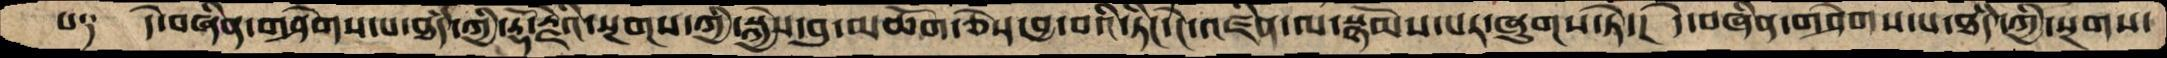པ༑  དེ་བཞིན་གཤེགས་པ་ཐཾད་ཀྱི་རྡོ་རྗེའི་སྔགས་ཀྱི་སྐྱེས་བུ་མཆོག་ཅེས་བྱ་བའི་ཏིང་ངེ་འཛིན་ལ་སྙོམས་པར་ཞུགས་ཏེ་།  དེ་བཞིན་གཤེགས་པ་ཐཾད་ཀྱི་སྔགས་
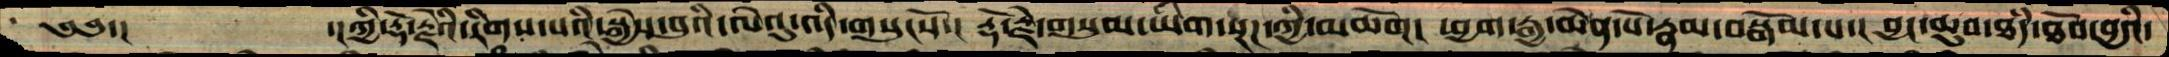༄༅་།          ་།ཀྱི་རྡོ་རྗེའི་རིགས་པའི་སྐྱེས་བུའི་ལེའུ་འདི་གསུངསོ་། རྡོ་རྗེ་གསུམ་ཡིག་སྔཌ་ཀྱི་མཆོག། ཕྱག་རྒྱ་ཆེན་པོ་རྣམ་བསྒོམ་པ་། བྱང་ཆུབ་ཐཾད་ཐོབ་བྱའི་
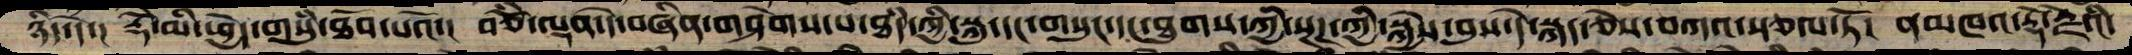ཉིད་དོ་།།  རྡོེ་མི་ཕྱེད་གསུཾ་ཐོབ་པའོ་།  བཅོཾ་ལྡན་དེ་བཞིན་གཤེགས་པ་ཐཾད་ཀྱི་སྐུ་དང་གསུང་དང་ཐུགས་ཀྱི་སྔཌ་ཀྱི་སྐྱེས་བུས་དེ་སྐད་ཅེས་བཀའ་སྩལ་ཏོ།  ནམཁའ་རྡོ་རྗེའི་
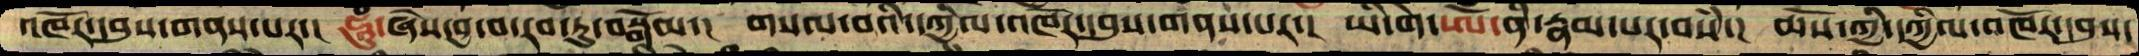འཁོར་དབུས་གནས་པར་།  ཧཱུཾ་ཞེས་བྱ་བ་རབ་ཏུ་བསྒོམ་།  གསལ་བའི་དཀྱིལ་འཁོར་དབུས་གནས་པར་།  ཡི་གེ་ཨོཾ་ནི་རྣམ་པར་བསཾ་།  ཆོས་ཀྱི་དཀྱིལ་འཁོར་དབུས་
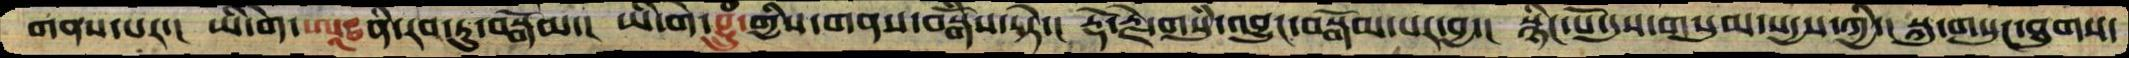གནས་པར་།  ཡི་གེ་ཨཱཿནི་རབ་ཏུ་བསྒོམ་།  ཡི་གེ་བྷྲུཾ་གྱིས་གནས་བསྒོཾས་སྟེ་།  རྡོ་རྗེ་གསུཾ་འབྱུང་བསྒོམ་པར་བྱ་།  སྙིང་པོ་དུས་གསུམ་སདྱས་ཀྱི་། སྐུ་གསུང་ཐུགས་
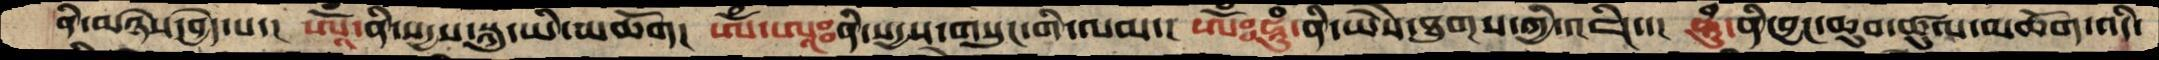ནི་མཉེས་བྱེད་པ་།  ཨཱོཾ་ནི་སདྱས་སྐུ་ཡི་མཆོག། ཨོཾ་ཨཱཿནི་སདྱས་གསུང་གི་ལམ་། ཨོཾཿཧཱུཾ་ནི་ཡཻས་ཐུགས་གྱི་འཇིང་་།  ཧཱུཾ་ནི་བྱང་ཆུབ་ཚུལ་མཆོག་འདི་
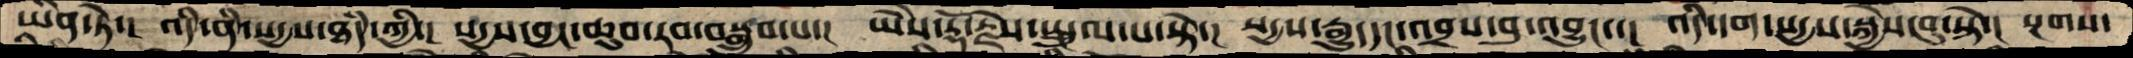ཡིན་ཏེ་།  འདི་ནི་སདྱས་ཐཾད་ཀྱི་།  སདྱས་བྱང་ཆུབ་རབ་བསྒྲུབ་པ་།  ཡཻས་རྡོ་རྗེས་སྤྲུལ་པ་སྟེ་།  སདྱས་རྒྱུ་དང་འབྲས་བུ་འབྱུང་་།  འདི་དག་སདྱས་སྐྱེས་བུ་སྟེ་། སྔགས་
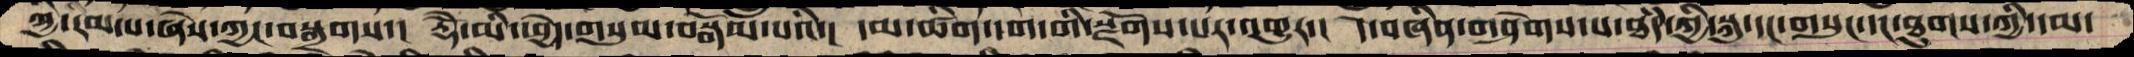ཀྱི་རིམ་པ་ཞེས་ཀྱང་བསྒྲགས་། རྡོེ་མི་ཕྱེད་གསུམ་བསྒོོམ་པའི་།  དམ་ཚིག་དག་གི་སྫོགས་པར་འགྱུར་།  དེ་བཞིན་གཤེགས་པ་ཐཾད་ཀྱི་སྐུ་དང་གསུང་དང་ཐུགས་ཀྱི་དམ་
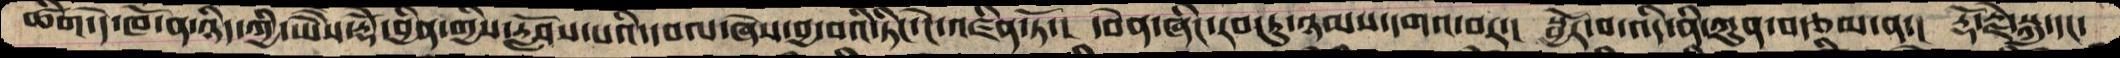ཚིག་དེ་ཁོ་ན་ཉིད་ཀྱི་ཡཻས་རྡོེ་བྱིན་གྱིས་རློབས་པའི་དཔལ་ཞེས་བྱ་བའི་ཏིང་ངེ་འཛིན་ཏོ་། དབེན་ཞིང་རབ་ཏུ་ཉམས་དགའ་བར་། སྦྱོར་བ་འདི་ནི་ཀུན་བརྩལ་ན་།  རྡོ་རྗེ་སྐུ་དང་
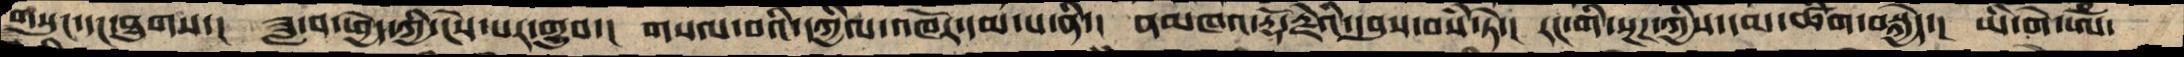གསུང་དང་ཐུགས་།  ཟླ་བ་ཕྱེད་ཀྱི་ངེས་པར་གྱུབ་། གསལ་བའི་དཀྱིལ་འཁོར་དམ་པ་ནི་། ནམཁའ་རྡོ་རྗེའི་དབུས་བསཾ་ཏེ་། རང་གི་སྔཌ་ཀྱིས་དམ་ཚིག་བསྐྱེད་།  ཡི་གེ་ཨོཾ་
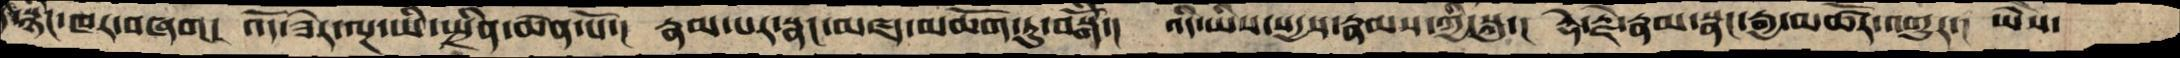སྙིང་ཁར་བཞག།  འདོ་ཟེར་ལྔ་ཡི་སྤྲིན་ཆེན་པོ་།  རྣམ་པར་སྣང་མཛད་མཆོག་ཏུ་བསྒོཾ་།  འདི་ཡིས་སདྱས་རྣམས་ཀྱི་སྐུ་།  རྡོ་རྗེ་རྣམ་སྣང་རྒྱ་མཚོར་འགྱུར་།   ཡཻས་
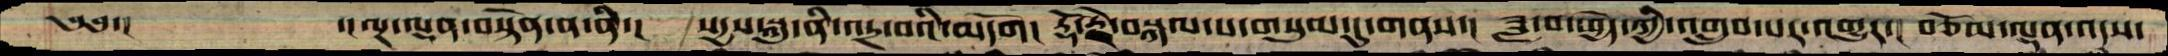༄༅་།    ་།ལྔ་ལྡན་བསྟེན་ན་ནི་།  སདྱས་སྐུ་ནི་འདྲ་བའི་མདོག།   རྡོ་རྗེ་བསྐལ་པ་གསུམ་དུ་གནས་།  ཟླ་བ་ཕྱེད་ཀྱི་འགྲུར་པར་འགྱུར་།  བཅོམ་ལྡན་འདས་
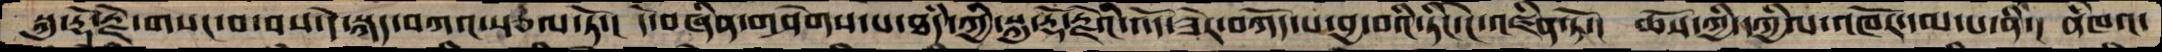སྐུ་རྡོ་རྗེ་གསང་བ་བས་དེ་སྐད་བཀའ་སྩལ་ཏོ་།  དེ་བཞིན་གཤེགས་པ་ཐཾད་ཀྱི་སྐུ་རྡོ་རྗེའི་འོད་ཟེར་བཀོད་པ་བྱ་བའི་ཏིང་ངེ་འཛིན་ཏོ་།  ཆོས་ཀྱི་དཀྱིལ་འཁོར་དམ་པ་ནི་།  ནཾཁའ་
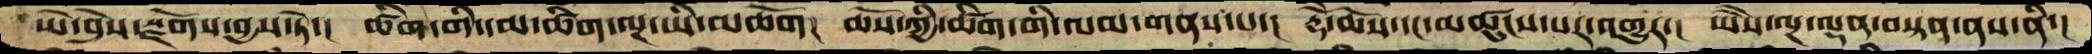ཡེ་ཤེས་སྫོགས་བྱས་ཏེ་།  ཚིག་གི་དམ་ཚིག་ལྔ་ཡི་མཆོག།   ཆོས་ཀྱི་ཚིག་གི་ལམ་གནས་པ་།  རྡོེ་ཆོས་དང་མཚུངས་པར་འགྱུར་།  ཡཻས་ལྔ་ལྡན་བསྟན་ནས་ནི་།
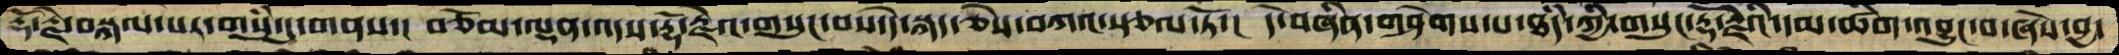རྡོ་རྗེ་བསྐལ་པར་གསུཾ་དུ་གནས་།  བཅོམ་ལྡན་འདས་རྡོ་རྗེའ་གསུང་བས་དེ་སྐད་ཅེས་བཀའ་སྩལ་ཏོ་།  དེ་བཞིན་གཤེགས་པ་ཐཾད་ཀྱི་གསུང་རྡོ་རྗེའི་དམ་ཚིག་འབྱུང་བ་ཞེས་བྱ་
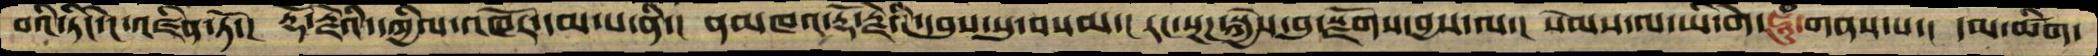བའི་ཏིང་ངེ་འཛིན་ཏོ་།  རྡོ་རྗེའི་དཀྱིལ་འཁོར་དམ་པ་ནི་།  ནམཁའ་རྡོ་རྗེའི་དབུས་སུ་བསམ་།  རང་སྔཌ་སྐྱེས་བུ་སྫོགས་བྱས་ལ་།  སེམས་ལ་ཡི་གེ་ཧཱུཾ་གནས་པ་།  དམ་ཚིག་
